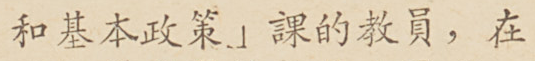和基本政策」課的教員，在
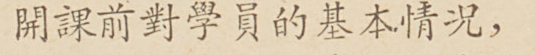開課前對學員的基本情況，
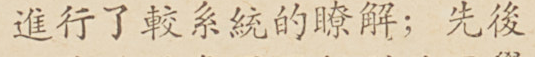進行了較系統的瞭解；先後
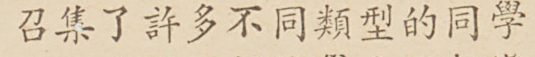召集了許多不同類型的同學
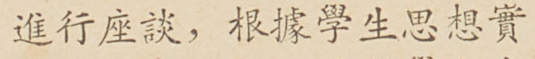進行座談，根據學生思想實
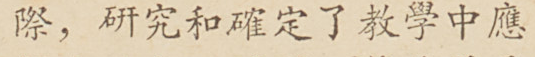際，研究和確定了教學中應
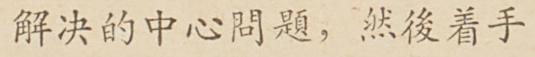解決的中心問題，然後着手
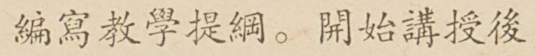編寫教學提綱。開始講授後
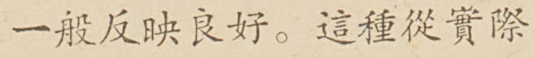一般反映良好。這種從實際
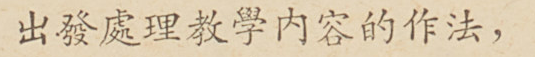出發處理教學內容的作法，
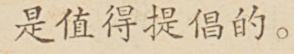是值得提倡的。
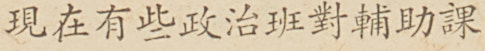現在有些政治班對輔助課
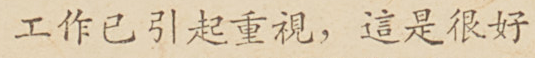工作已引起重視，這是很好
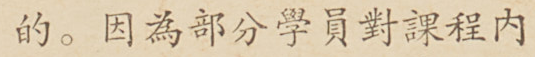的。因為部分學員對課程內
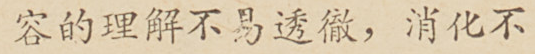容的理解不易透徹，消化不
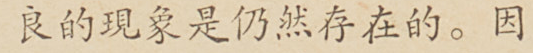良的現象是仍然存在的。因
